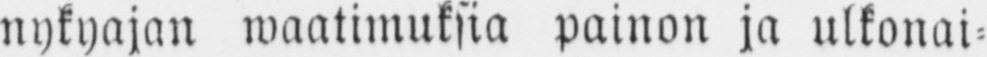nykyajan waatimuksia painon ja ulkonai-
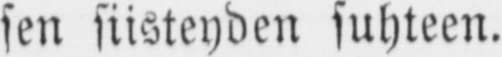sen siisteyden suhteen.
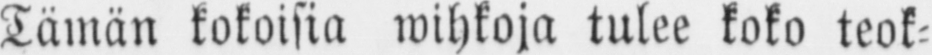Tämän kokoisia wihkoja tulee koko teok-
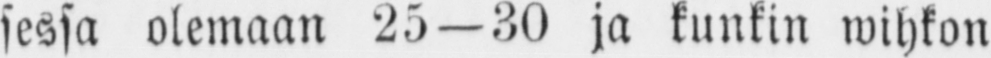sessa olemaan 25 — 30 ja kunkin wihkon
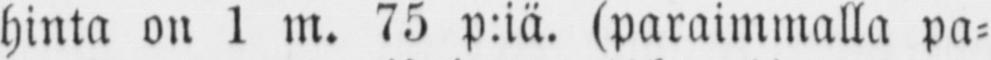hinta on 1 m. 75 p:iä. (paraimmalla pa-
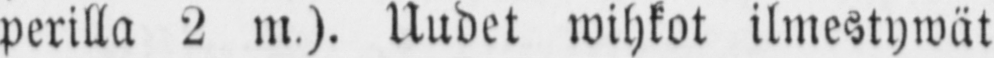perilla 2 m.). Uudet wihkot ilmestywät
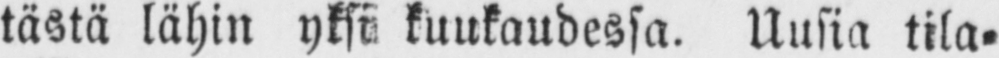tästä lähin yksi kuukaudessa. Uusia tila-
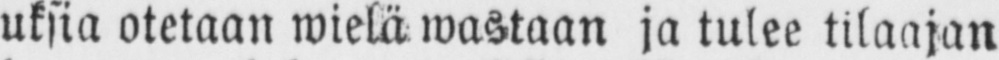uksia otetaan wielä wastaan ja tulee tilaajan
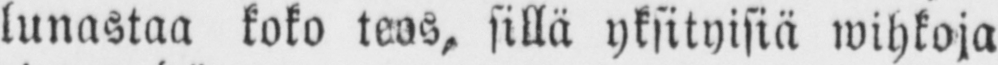lunastaa koko teos, sillä yksityisiä wihkoja
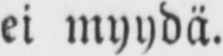ei myydä.
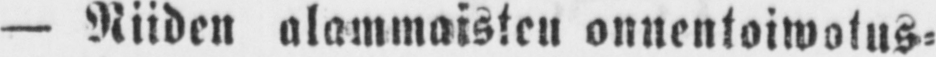— Niiden alammaisten onnentoiwotus-
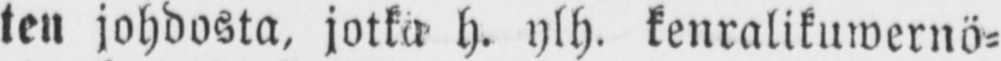ten johdosta, jotka h. ylh. kenralikuwernö-
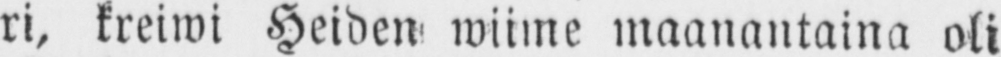ri, kreiwi Heiden wiime maanantaina oli
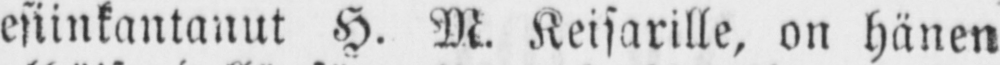esiinkantanut H. M. Keisarille, on hänen
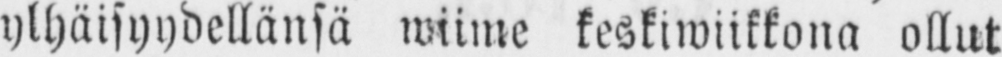ylhäisyydellänsä wiime keskiwiikkona ollut
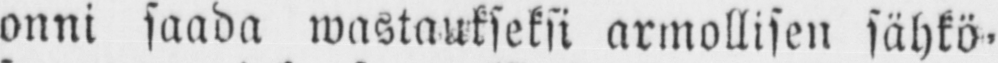onni saada wustaukseksi armollisen sähkö-
